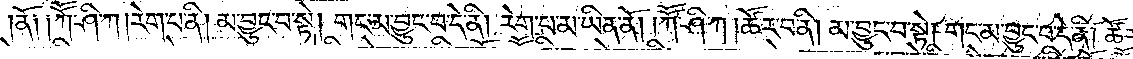ནོ༑ ༑ཀཽ་ཤི་ཀ །རེག་པ་ནི། མ་བྱུང་བ་སྟེ། གང་མ་བྱུང་བ་དེ་ནི། རེག་པ་མ་ཡིན་ནོ། །ཀཽ་ཤི་ཀ །ཚོར་བ་ནི། མ་བྱུང་བ་སྟེ། གང་མ་བྱུང་བ་དེ་ནི། ཚོར་བ་
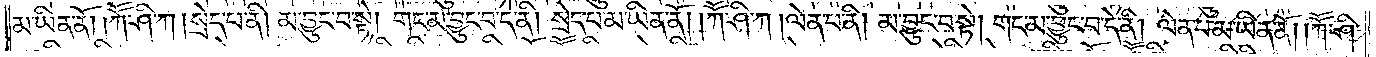མ་ཡིན་ནོ། །ཀཽ་ཤི་ཀ །སྲེད་པ་ནི། མ་བྱུང་བ་སྟེ། གང་མ་བྱུང་བ་དེ་ནི། སྲེད་པ་མ་ཡིན་ནོ། །ཀཽ་ཤི་ཀ །ལེན་པ་ནི། མ་བྱུང་བ་སྟེ། གང་མ་བྱུང་བ་དེ་ནི། ལེན་པ་མ་ཡིན་ནོ། །ཀཽ་ཤི་
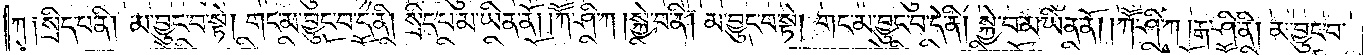ཀ ༑སྲིད་པ་ནི། མ་བྱུང་བ་སྟེ། གང་མ་བྱུང་བ་དེ་ནི། སྲིད་པ་མ་ཡིན་ནོ། །ཀཽ་ཤི་ཀ །སྐྱེ་བ་ནི། མ་བྱུང་བ་སྟེ། གང་མ་བྱུང་བ་དེ་ནི། སྐྱེ་བ་མ་ཡིན་ནོ། །ཀཽ་ཤི་ཀ །རྒ་ཤི་ནི། མ་བྱུང་བ་
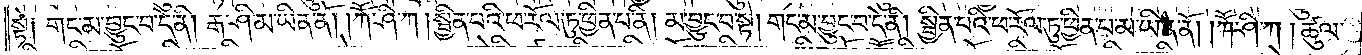སྟེ༑ གང་མ་བྱུང་བ་དེ་ནི་རྒ་ཤི་མ་ཡིན་ནོ། །ཀཽ་ཤི་ཀ །སྦྱིན་པའི་ཕ་རོལ་ཏུ་ཕྱིན་པ་ནི། མ་བྱུང་བ་སྟེ། གང་མ་བྱུང་བ་དེ་ནི། སྦྱིན་པའི་ཕ་རོལ་ཏུ་ཕྱིན་པ་མ་ཡིན་ནོ། །ཀཽ་ཤི་ཀ །ཚུལ་
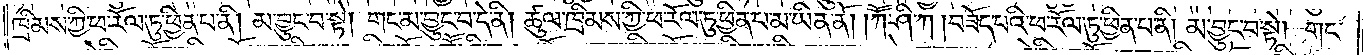ཁྲིམས་ཀྱི་ཕ་རོལ་ཏུ་ཕྱིན་པ་ནི། མ་བྱུང་བ་སྟེ། གང་མ་བྱུང་བ་དེ་ནི། ཚུལ་ཁྲིམས་ཀྱི་ཕ་རོལ་ཏུ་ཕྱིན་པ་མ་ཡིན་ནོ། །ཀཽ་ཤི་ཀ །བཟོད་པའི་ཕ་རོལ་ཏུ་ཕྱིན་པ་ནི། མ་བྱུང་བ་སྟེ། གང་
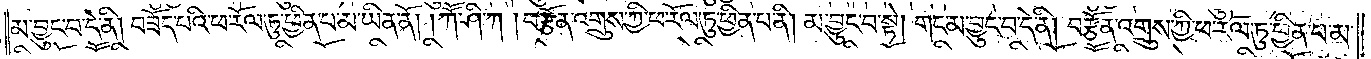མ་བྱུང་བ་དེ་ནི། བཟོད་པའི་ཕ་རོལ་ཏུ་ཕྱིན་པ་མ་ཡིན་ནོ༎ ཀཽ་ཤི་ཀ །བརྩོན་འགྲུས་ཀྱི་ཕ་རོལ་ཏུ་ཕྱིན་པ་ནི། མ་བྱུང་བ་སྟེ། གང་མ་བྱུང་བ་དེ་ནི། བརྩོན་འགྲུས་ཀྱི་ཕ་རོལ་ཏུ་ཕྱིན་པ་མ་
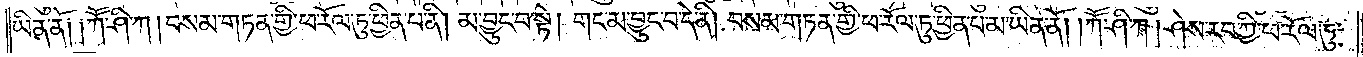ཡིན་ནོ༑ ༑ཀཽ་ཤི་ཀ །བསམ་གཏན་གྱི་ཕ་རོལ་ཏུ་ཕྱིན་པ་ནི། མ་བྱུང་པ་སྟེ། གང་མ་བྱུང་བ་དེ་ནི། བསམ་གཏན་གྱི་ཕ་རོལ་ཏུ་ཕྱིན་པ་མ་ཡིན་ནོ། །ཀཽ་ཤི་ཀ །ཤེས་རབ་ཀྱི་ཕ་རོལ་ཏུ་
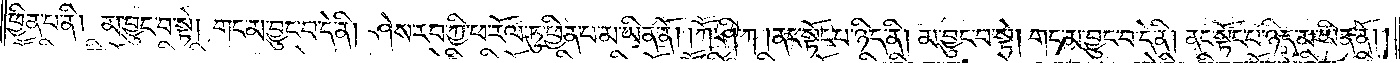ཕྱིན་པ་ནི། མ་བྱུང་བ་སྟེ། གང་མ་བྱུང་བ་དེ་ནི། ཤེས་རབ་ཀྱི་ཕ་རོལ་ཏུ་ཕྱིན་པ་མ་ཡིན་ནོ། །ཀཽ་ཤི་ཀ །ནང་སྟོང་པ་ཉིད་ནི། མ་བྱུང་བ་སྟེ། གང་མ་བྱུང་བ་དེ་ནི། ནང་སྟོང་པ་ཉིད་མ་ཡིན་ནོ༎
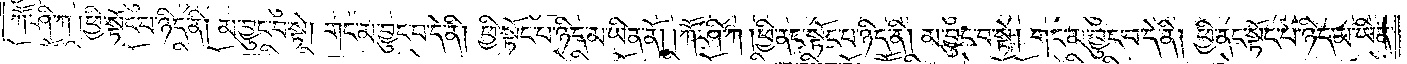ཀཽ་ཤི་ཀ །ཕྱི་སྟོང་པ་ཉིད་ནི། མ་བྱུང་བ་སྟེ། གང་མ་བྱུང་བ་དེ་ནི། ཕྱི་སྟོང་པ་ཉིད་མ་ཡིན་ནོ། །ཀཽ་ཤི་ཀ །ཕྱི་ནང་སྟོང་པ་ཉིད་ནི། མ་བྱུང་བ་སྟེ། གང་མ་བྱུང་བ་དེ་ནི། ཕྱི་ནང་སྟོང་པ་ཉིད་མ་ཡིན་
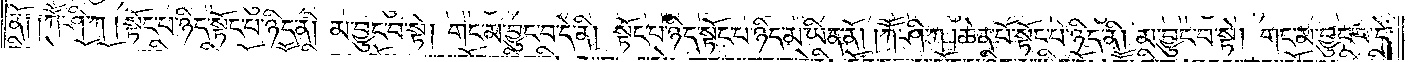ནོ༑ ༑ཀཽ་ཤི་ཀ །སྟོང་པ་ཉིད་སྟོང་པ་ཉིད་ནི། མ་བྱུང་བ་སྟེ། གང་མ་བྱུང་བ་དེ་ནི། སྟོང་པ་ཉིད་སྟོང་པ་ཉིད་མ་ཡིན་ནོ། །ཀཽ་ཤི་ཀ །ཆེན་པོ་སྟོང་པ་ཉིད་ནི། མ་བྱུང་བ་སྟེ། གང་མ་བྱུང་བ་དེ་
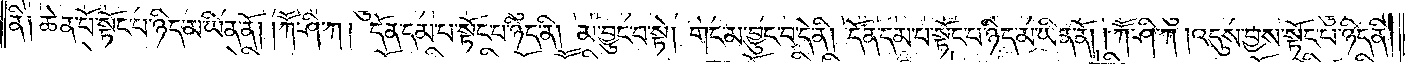ནི༑ ཆེན་པོ་སྟོང་པ་ཉིད་མ་ཡིན་ནོ། །ཀཽ་ཤི་ཀ །དོན་དམ་པ་སྟོང་པ་ཉིད་ནི། མ་བྱུང་བ་སྟེ། གང་མ་བྱུང་བ་དེ་ནི། དོན་དམ་པ་སྟོང་པ་ཉིད་མ་ཡིན་ནོ། །ཀཽ་ཤི་ཀ །འདུས་བྱས་སྟོང་པ་ཉིད་ནི།
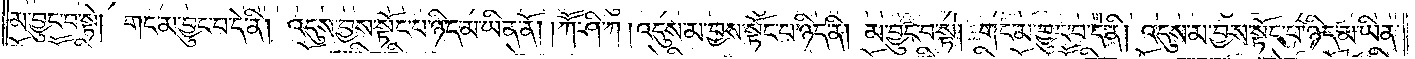མ་བྱུང་བ་སྟེ། གང་མ་བྱུང་བ་དེ་ནི། འདུས་བྱས་སྟོང་པ་ཉིད་མ་ཡིན་ནོ། །ཀཽ་ཤི་ཀ །འདུས་མ་བྱས་སྟོང་པ་ཉིད་ནི། མ་བྱུང་བ་སྟེ། གང་མ་བྱུང་བ་དེ་ནི། འདུས་མ་བྱས་སྟོང་པ་ཉིད་མ་ཡིན་
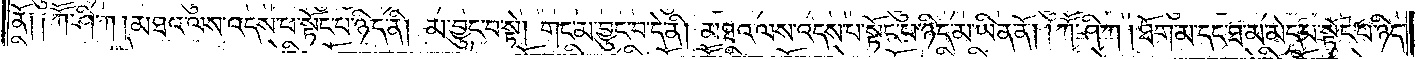ནོ༑ ༑ཀཽ་ཤི་ཀ །མཐའ་ལས་འདས་པ་སྟོང་པ་ཉིད་ནི། མ་བྱུང་བ་སྟེ། གང་མ་བྱུང་བ་དེ་ནི། མཐའ་ལས་འདས་པ་སྟོང་པ་ཉིད་མ་ཡིན་ནོ། །ཀཽ་ཤི་ཀ །ཐོག་མ་དང་ཐ་མ་མེད་པ་སྟོང་པ་ཉིད་
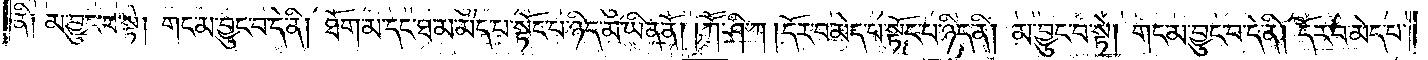ནི༑ མ་བྱུང་བ་སྟེ། གང་མ་བྱུང་བ་དེ་ནི། ཐོག་མ་དང་ཐ་མ་མེད་པ་སྟོང་པ་ཉིད་མ་ཡིན་ནོ། །ཀཽ་ཤི་ཀ །དོར་བ་མེད་པ་སྟོང་པ་ཉིད་ནི། མ་བྱུང་བ་སྟེ། གང་མ་བྱུང་བ་དེ་ནི། དོར་བ་མེད་པ་
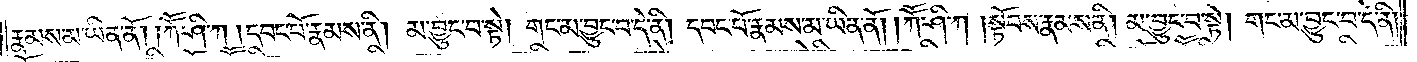རྣམས་མ་ཡིན་ནོ། །ཀཽ་ཤི་ཀ །དབང་པོ་རྣམས་ནི། མ་བྱུང་བ་སྟེ། གང་མ་བྱུང་བ་དེ་ནི། དབང་པོ་རྣམས་མ་ཡིན་ནོ། །ཀཽ་ཤི་ཀ །སྟོབས་རྣམས་ནི། མ་བྱུང་བ་སྟེ། གང་མ་བྱུང་བ་དེ་ནི།
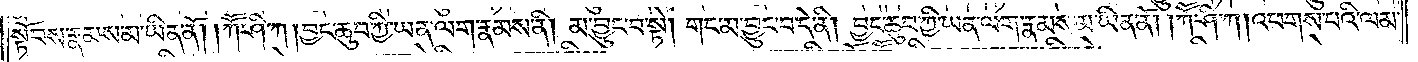སྟོབས་རྣམས་མ་ཡིན་ནོ། །ཀཽ་ཤི་ཀ །བྱང་ཆུབ་ཀྱི་ཡན་ལག་རྣམས་ནི། མ་བྱུང་བ་སྟེ། གང་མ་བྱུང་བ་དེ་ནི། བྱང་ཆུབ་ཀྱི་ཡན་ལག་རྣམས་མ་ཡིན་ནོ། །ཀཽ་ཤི་ཀ །འཕགས་པའི་ལམ་
